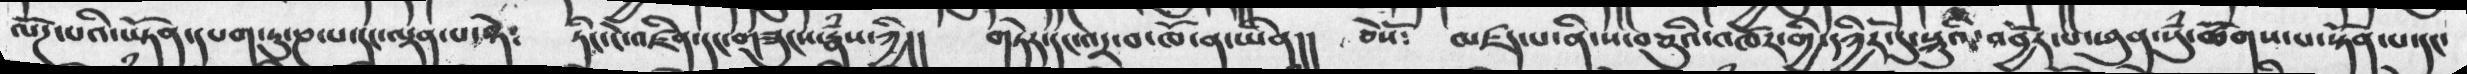ལོཌ་པའི་ཡྟོན་དཔག་ཏུ་ཎ་པ་དང་ལྡན་པ་སྟེ༴  ཏིང་ངེ་འཛིན་དང་གཟུངས་རྣཾ་ཀྱི།།  གཏེར་དང་འདྲ་བ་ཁོ་ན་ཡིན།།  ཅེསོ༴  མཛད་པ་ནི་ས་བཅུའི་འཁོར་གྱི་དཀྱིརོ་དུ་སྐུའི་འབྱོར་པ་ཕུན་སུཾ་ཚོགས་པ་སྟོན་པ་དང་
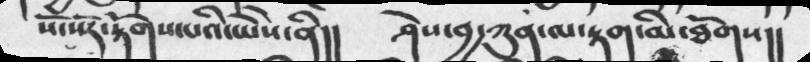སོ་སོར་རྟོགས་པའི་ཡེེས་ནི།།  ཤེས་བྱ་ཀུན་ལ་རྟག་མི་ཐོགས།།
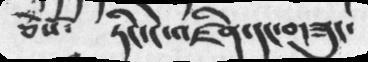ཅེསོ༴   ཏིང་ངེ་འཛིན་དང་གཟུང་
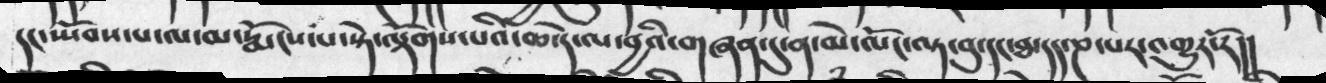དང་སྤོབས་པ་ལ་མ་རྨོངས་པ་སྟེ་ལྟོགས་པའི་ཆ་དེ་ལ་བྱའི་གཞན་དུ་ན་མེ་ལོང་ལྟ་བུ་དང་ཐ་དད་ཎ་པར་འགྱུར་རོ།།
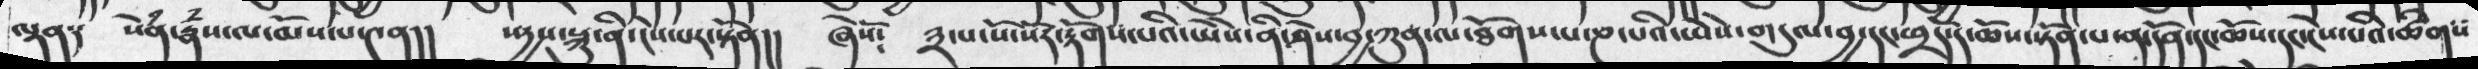ལྡན༑   སེཾན་རྣཾས་ལ་མོས་པ་༤ན།།  སདྱས་སྐུ་ནི་ངེས་པར་སྟོན།།  ཞེསོ༴  ༣་པ་སོ་སོར་རྟོགས་པའི་ཡེེས་ནི་ཤེས་བྱ་ཀུན་ལ་ཐོགས་པ་ཎ་པའི་ཡེེས་གདུལ་བྱ་དང་ཕྲད་དོ་ཆོས་སྟོན་པ་ན་དོན་དང་ཆོས་དང་ངེས་པའི་ཚིགས
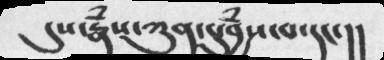དུས་རྣཾས་ཀུན་དུ་བྱཾས་པ་དང་།།
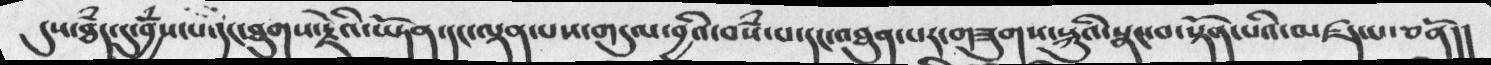དུས་ཐཾད་དུ་བྱཾས་པ་དང་ཐུགས་རྗེའི་ཡྟོན་དང་ལྡན་པས་གདུལ་བྱའི་བསཾ་པ་དང་འཐུན་པར་གཟུགས་སྐུའི་སྣང་བ་སྟོན་པའི་མཛད་པ་ཅནོ།།
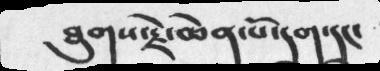ཐུགས་རྗེ་ཆེན་པོ་དག་དང་
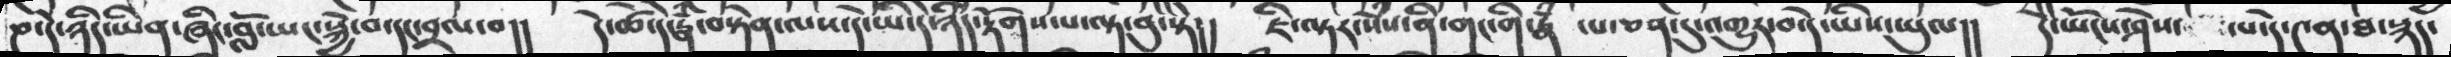ཎ་དེ་ཉིད་ཡིན་ཞིང་བློ་ཡང་སྐྱེ་བ་དང་བྲལ་བ།།  དེ་ཚེ་དེ་རྣཾ་བསྟེན་ལས་དེ་ཡི་དེ་ཉིད་རྟོགས་པ་ལྟ་བུ་སྟེ།།  ཇི་ལྟར་སེཾས་ནི་གང་གི་རྣཾ པ་ཅན་དུ་འགྱུར་བ་དེ་ཡིས་ཡུལ།།  དེ་ཡོངས་ཤེས་  ་པ་དེ་༤ན་ཐ་སྙད་
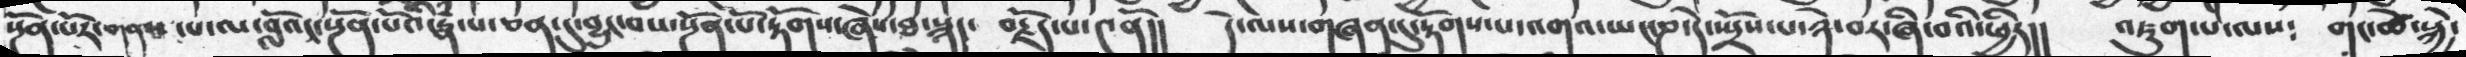སྔོན་པོར་གནས་པ་ལ་བློའང་སྔོན་པོའི་རྣཾ་པ་ཅན་དུ་བྱུང་བས་སྔོན་པོ་རྟོགས་ཞེས་ཐ་སྙད་  བརྗོད་པ་༤ནོ།།   དེ་ལས་གཞན་དུ་རྟོགས་པ་འགའ་ཡང་ཎ་དེ་སྤྲོས་པ་ཉེ་བར་ཞི་བའི་ཕྱིར།།  འཇུག་པ་ལས༴  གང་ཚེ་སྐྱེ་
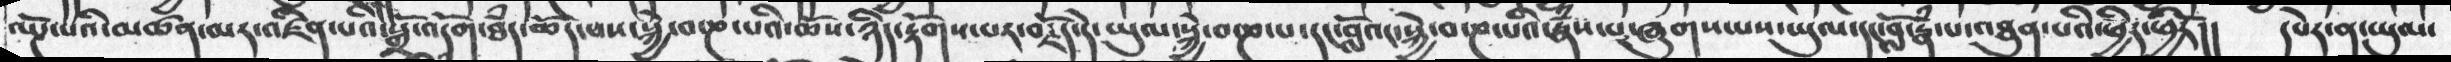ལོཌ་པའི་མཚན་མར་འཛིན་པའི་སྒྲི་འདོག་ཐཾད་ཆོས་པས་སྐྱེ་བ་ཎ་པའི་ཆོས་ཉིད་རྟོགས་པར་བརྗོད་དེ་ཡུལ་སྐྱེ་ཎ་པ་དང་བློའང་སྐྱེ་བ་ཎ་པའི་རྣཾས་པ་ཞུགས་པས་ཡུལ་དང་བློ་རྣཾ་པ་འཐུན་པའི་ཕྱིར་ཕྱིརོ།།  དཔེར་ན་ཡུམ་
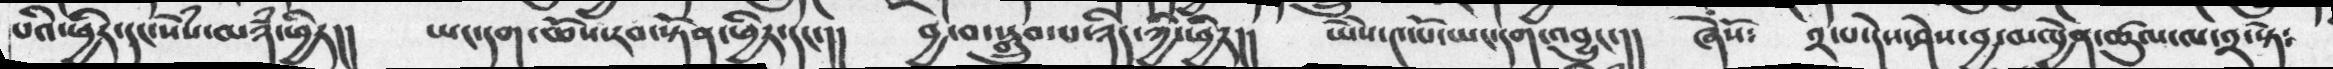པའི་ཕྱིར་དང་སེཾས་མཉཾ་ཕྱིར།།  ཡང་དག་ཆོས་རབ་སྟོན་ཕྱིར་དང་།།  བྱ་བ་སྒྲུབ་པ་ཉིད་ཀྱི་ཕྱིར།།  ཡེེས་༤་པོ་ཡང་དག་འབྱུང་།།  ཞེསོ༴  ༢་པ་དེས་ཤེས་བྱ་མཁྱེན་ཚུལ་ལ་༢་སྟེ༴
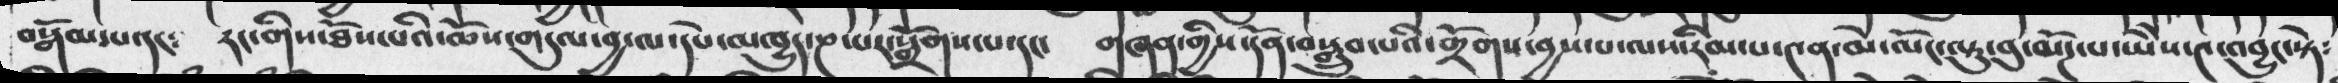བསྒོམ་པ་དང༴  རང་གིས་ཐོས་པའི་ཆོས་གདུལ་བྱ་ལ་དཔེ་མཁྱུད་ཎ་པར་སྒྲོགས་པ་དང་   གཞན་གྱིས་དོན་བསྒྲུབ་པའི་གྲོགས་བྱས་པ་ལས་རིམ་པ་༤ན་མེ་ལོང་ལྟུ་བུ་མོཌ་པ་ཡེེས་༤་འབྱུང་སྟེ༴
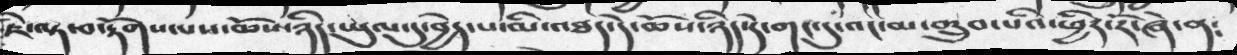ཇི་ལྟ་བ་རྟོགས་པས་ཆོས་ཉིད་ཡུལ་དུ་བྱེད་པ་མི་འཐད་དེ་ཆོས་ཉིད་དེ་གང་དུ་འང་མ་གྲུབ་པའི་ཕྱིར་རོ་ཞེ་ན༴
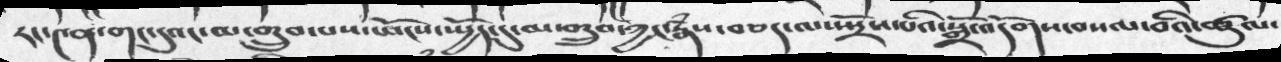རང་༤ན་གང་དུའང་མ་གྲུབ་པས་ཡོངས་སྤྱོད་དུ་མ་གྲུབ་ཀྱང་རྣཾས་བཅད་ལ་སྤྲོས་པའི་སྒྲོ་འདོགས་བསལ་བའི་ཚུལ་
